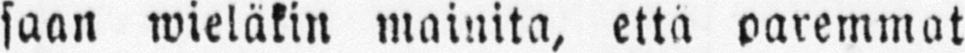saan wieläkin mainita, että paremmat
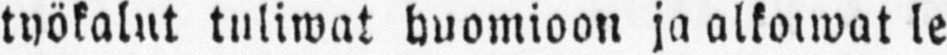työkalut tuliwat huomioon ja alkoiwat le
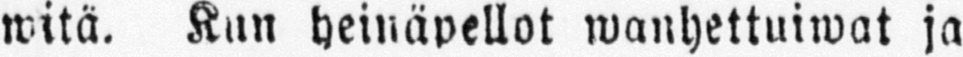witä. Kun heinäpellot wanhettuiwat ja
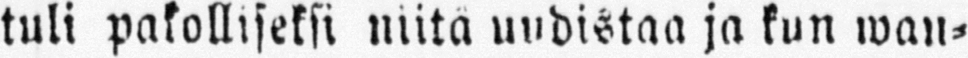tuli pakolliseksi niitä uudistaa ja kun wan-
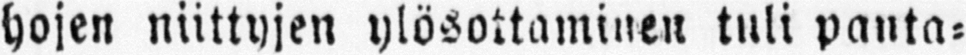hojen niittyjen ylösottaminen tuli panta-
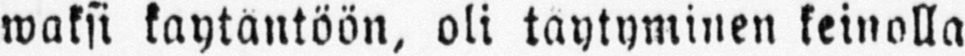waksi käytäntöön, oli täytyminen keinolla
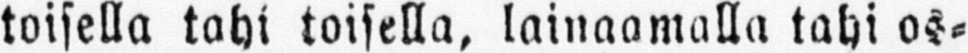toisella tahi toisella, lainaamalla tahi os-
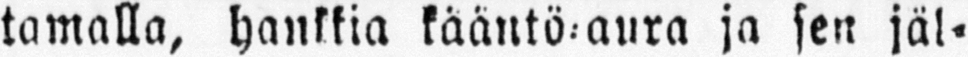tamalla, hankkia kääntö-aura ja sen jäl-
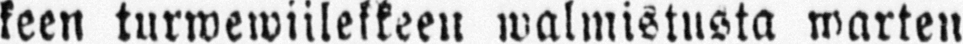keen turwewiilekkeen walmistusta warten
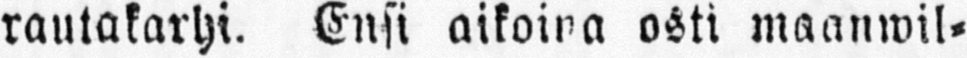rautakarhi. Ensi aikoiva osti maanwil-
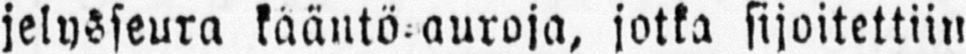jelysseura kääntö auroja, jotka sijoitettiin
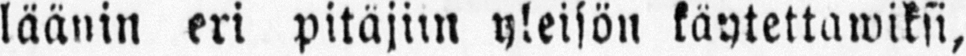läänin eri pitäjiin yleisön käytettawiksi,
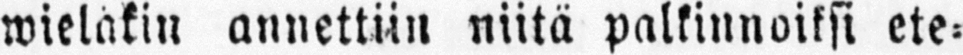wieläkin annettiin niitä palkinnoiksi ete-
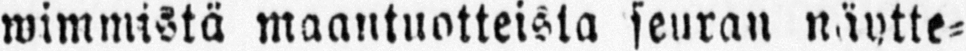wimmistä maantuotteista seuran näytte-
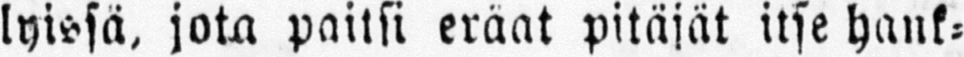lyissä, join paitsi eräät pitäjät itse hank-
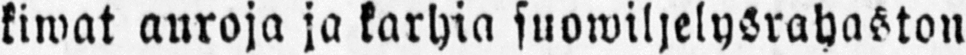kiwat auroja ja karhia suowiljelysrahaston
